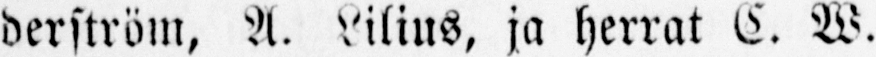derström, A. Lilius, ja herrat C. W.
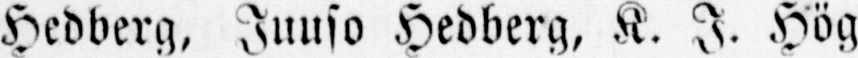Hedberg, Juuso Hedberg, K. I. Hög-
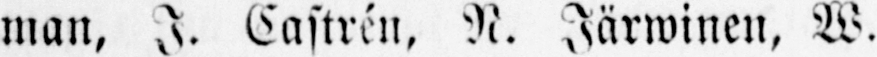man, I. Castrén, N. Järwinen, W.
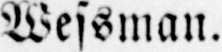Wessman.
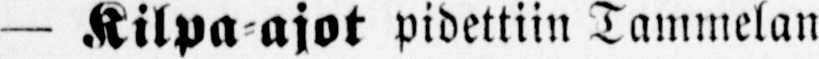— Kilpa-ajot pidettiin Tammelan
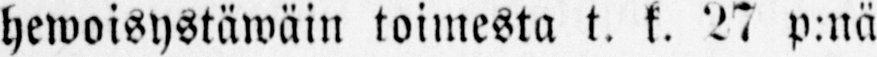hewoisystäwäin toimesta t. k. 27 p:nä
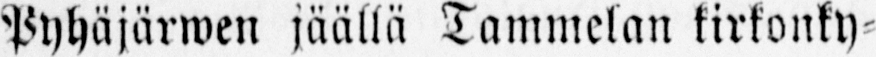Pyhäjärwen jäällä Tammelan kirkonky-
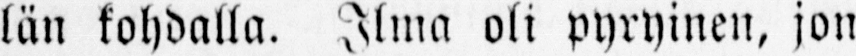län kohdalla. Ilma oli pyryinen, jon-
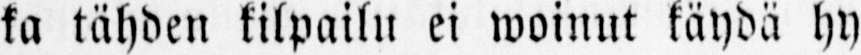ka tähden kilpailu ei woinut käydä hy-
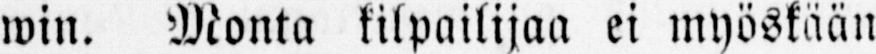win. Monta kilpailijaa ei myöskään
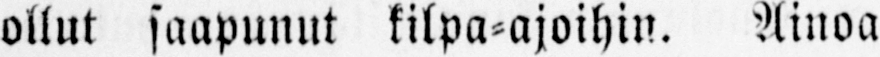ollut saapunut kilpa-ajoihin. Ainoa
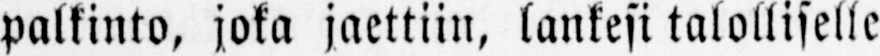palkinto, joka jaettiin, lankesi talolliselle
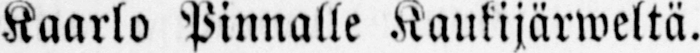Kaarlo Pinnalle Kaukijärweltä.
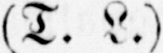(T. L.)
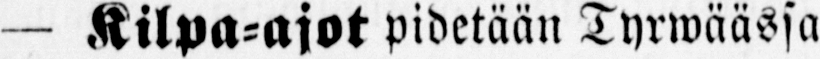— Kilpa-ajot pidetään Tyrwäässa
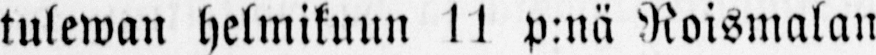tulewan helmikuun 11 p:nä Roismalan
